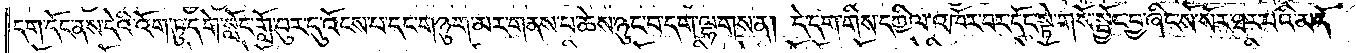དག་དོང་ནས་དེའི་འོག་ཏུ་དགེ་སློང་གློ་བུར་དུ་འོངས་པ་དང་གཉུག་མར་གནས་པ་ཆེས་ཉུང་བ་དག་ལྷགས་ན། དེ་དག་གིས་དཀྱིལ་འཁོར་བར་དོང་སྟེ་གསོ་སྦྱོང་བྱ་ཞིང་སོ་སོར་ཐར་པའི་མདོ་
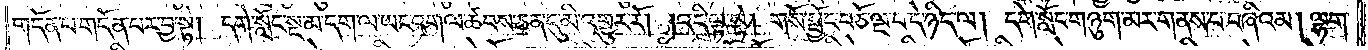གདོན་པ་གདོན་པར་བྱ་སྟེ། དགེ་སློང་སྔ་མ་དག་ལ་ཡང་འགལ་ཚབས་ཅན་དུ་མི་འགྱུར་རོ། །འདི་ལྟ་སྟེ། གསོ་སྦྱོང་བཅོ་ལྔ་པ་དེ་ཉིད་ལ། དགེ་སློང་གཉུག་མར་གནས་པ་བཞིའམ། ལྷག་
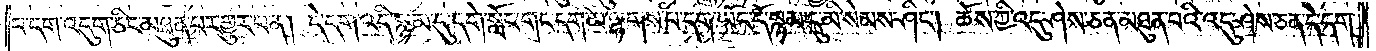པ་དག་འདུག་ཅིང་མཐུན་པར་གྱུར་པ་ན། དེ་དག་འདི་སྙམ་དུ་དགེ་སློང་གང་དག་མ་ལྷགས་པ་དག་ཡོད་དོ་སྙམ་དུ་མི་སེམས་ཤིང༌། ཆོས་ཀྱི་འདུ་ཤེས་ཅན་མཐུན་པའི་འདུ་ཤེས་ཅན་དེ་དག་
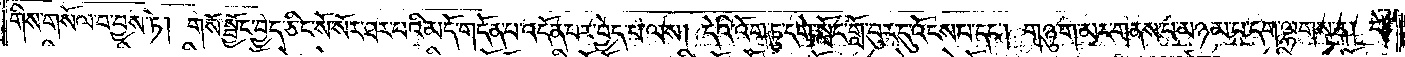གིས་གསོལ་བ་བྱས་ཏེ། གསོ་སྦྱོང་བྱེད་ཅིང་སོ་སོར་ཐར་པའི་མདོ་གདོན་པ་འདོན་པར་བྱེད་པ་ལས། དེའི་འོག་ཏུ་དགེ་སློང་གློ་བུར་དུ་འོངས་པ་དང༌། གཉུག་མར་གནས་པ་མཉམ་པ་དག་ལྷགས་ན། དེ་
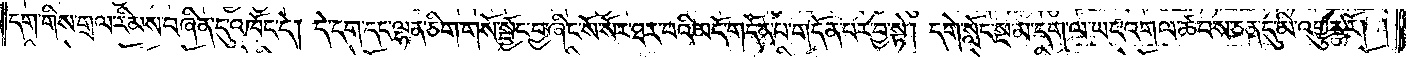དག་གིས་གྲལ་རིམས་བཞིན་དུ་འཁོང་དེ། དེ་དག་དང་ལྷན་ཅིག་གསོ་སྦྱོང་བྱ་ཞིང་སོ་སོར་ཐར་པའི་མདོ་གདོན་པ་གདོན་པར་བྱ་སྟེ། དགེ་སློང་སྔ་མ་དག་ལ་ཡང་འགལ་ཚབས་ཅན་དུ་མི་འགྱུར་རོ། །
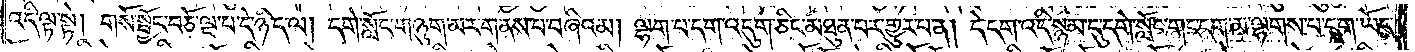འདི་ལྟ་སྟེ། གསོ་སྦྱོང་བཅོ་ལྔ་པ་དེ་ཉིད་ལ། དགེ་སློང་གཉུག་མར་གནས་པ་བཞིའམ། ལྷག་པ་དག་འདུག་ཅིང་མཐུན་པར་གྱུར་པ་ན། དེ་དག་འདི་སྙམ་དུ་དགེ་སློང་གང་དག་མ་ལྷགས་པ་དག་ཡོད་
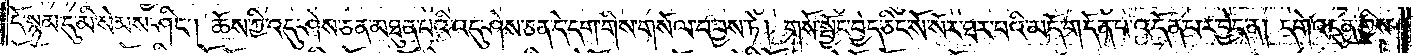དོ་སྙམ་དུ་མི་སེམས་ཤིང༌། ཆོས་ཀྱི་འདུ་ཤེས་ཅན་མཐུན་པའི་འདུ་ཤེས་ཅན་དེ་དག་གིས་གསོལ་བ་བྱས་ཏེ། གསོ་སྦྱོང་བྱེད་ཅིང་སོ་སོར་ཐར་པའི་མདོ་གདོན་པ་འདོན་པར་བྱེད་ན། དགེ་འདུན་གྱིས་
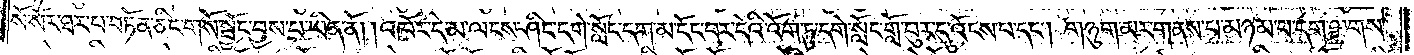སོ་སོར་ཐར་པ་བཏོན་ཅིང་གསོ་སྦྱོང་བྱས་པ་ཡིན་ནོ། །འཁོར་དེ་མ་ལངས་ཤིང་དགེ་སློང་དག་མ་དོང་བར་དེའི་འོག་ཏུ་དགེ་སློང་གློ་བུར་དུ་འོངས་པ་དང༌། གཉུག་མར་གནས་པ་མཉམ་པ་དག་ལྷགས་
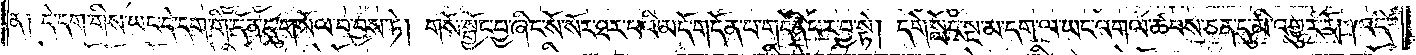ན༑ དེ་དག་གིས་ཡང་དེ་དག་གི་དོན་དུ་གསོལ་བ་བྱས་ཏེ། གསོ་སྦྱོང་བྱ་ཞིང་སོ་སོར་ཐར་པའི་མདོ་གདོན་པ་གདོན་པར་བྱ་སྟེ། དགེ་སློང་སྔ་མ་དག་ལ་ཡང་འགལ་ཚབས་ཅན་དུ་མི་འགྱུར་རོ། །འདི་
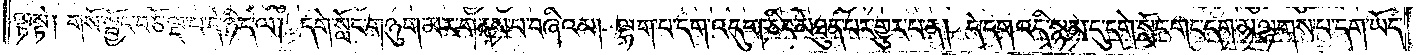ལྟ་སྟེ། གསོ་སྦྱོང་བཅོ་ལྔ་པ་དེ་ཉིད་ལ། དགེ་སློང་གཉུག་མར་གནས་པ་བཞིའམ། ལྷག་པ་དག་འདུག་ཅིང་མཐུན་པར་གྱུར་པ་ན། དེ་དག་འདི་སྙམ་དུ་དགེ་སློང་གང་དག་མ་ལྷགས་པ་དག་ཡོད་
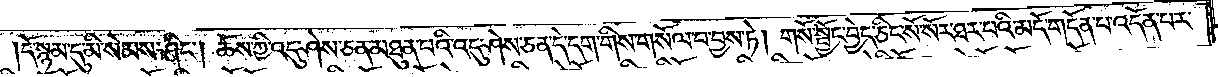།དོ་སྙམ་དུ་མི་སེམས་ཤིང༌། ཆོས་ཀྱི་འདུ་ཤེས་ཅན་མཐུན་པའི་འདུ་ཤེས་ཅན་དེ་དག་གིས་གསོལ་བ་བྱས་ཏེ། གསོ་སྦྱོང་བྱེད་ཅིང་སོ་སོར་ཐར་པའི་མདོ་གདོན་པ་འདོན་པར་
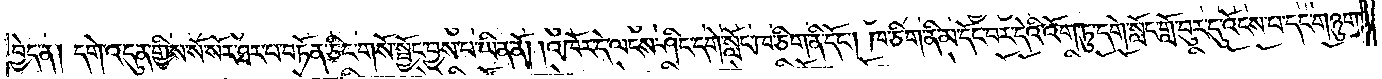བྱེད་ན། དགེ་འདུན་གྱིས་སོ་སོར་ཐར་པ་བཏོན་ཅིང་གསོ་སྦྱོང་བྱས་པ་ཡིན་ནོ། །འཁོར་དེ་ལངས་ཤིང་དགེ་སློང་ཁ་ཅིག་ནི་དོང༌། ཁ་ཅིག་ནི་མ་དོང་བར་དེའི་འོག་ཏུ་དགེ་སློང་གློ་བུར་དུ་འོངས་པ་དང་གཉུག་
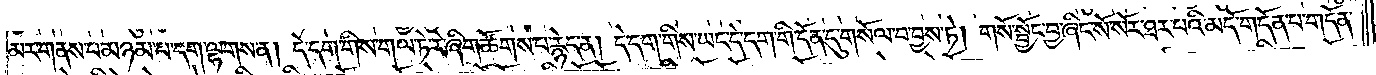མར་གནས་པ་མཉམ་པ་དག་ལྷགས་ན། དེ་དག་གིས་གལ་ཏེ་རེ་ཞིག་ཚོགས་པ་རྙེད་ན། དེ་དག་གིས་ཡང་དེ་དག་གི་དོན་དུ་གསོལ་བ་བྱས་ཏེ། གསོ་སྦྱོང་བྱ་ཞིང་སོ་སོར་ཐར་པའི་མདོ་གདོན་པ་གདོན་
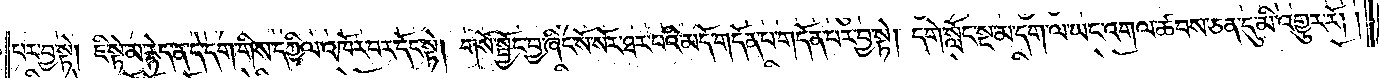པར་བྱ་སྟེ། ཇི་སྟེ་མ་རྙེད་ན་དེ་དག་གིས་དཀྱིལ་འཁོར་བར་དོང་སྟེ། གསོ་སྦྱོང་བྱ་ཞིང་སོ་སོར་ཐར་པའི་མདོ་གདོན་པ་གདོན་པར་བྱ་སྟེ། དགེ་སློང་སྔ་མ་དག་ལ་ཡང་འགལ་ཚབས་ཅན་དུ་མི་འགྱུར་རོ། །
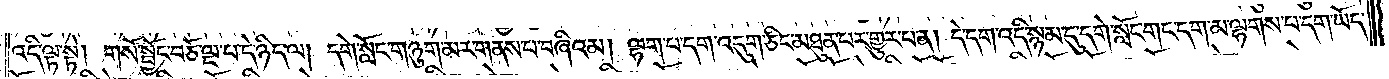འདི་ལྟ་སྟེ། གསོ་སྦྱོང་བཅོ་ལྔ་པ་དེ་ཉིད་ལ། དགེ་སློང་གཉུག་མར་གནས་པ་བཞིའམ། ལྷག་པ་དག་འདུག་ཅིང་མཐུན་པར་གྱུར་པ་ན། དེ་དག་འདི་སྙམ་དུ་དགེ་སློང་གང་དག་མ་ལྷགས་པ་དག་ཡོད་
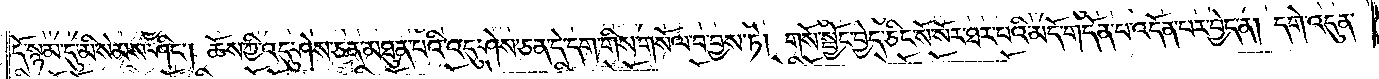དོ་སྙམ་དུ་མི་སེམས་ཤིང༌། ཆོས་ཀྱི་འདུ་ཤེས་ཅན་མཐུན་པའི་འདུ་ཤེས་ཅན་དེ་དག་གིས་གསོལ་བ་བྱས་ཏེ། གསོ་སྦྱོང་བྱེད་ཅིང་སོ་སོར་ཐར་པའི་མདོ་གདོན་པ་འདོན་པར་བྱེད་ན། དགེ་འདུན་
